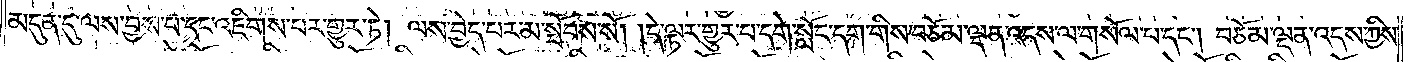མདུན་དུ་ལས་བྱས་པ་དང་འཇིགས་པར་གྱུར་ཏེ། ལས་བྱེད་པར་མ་སྦོབས་སོ། །དེ་ལྟར་གྱུར་པ་དགེ་སློང་དག་གིས་བཅོམ་ལྡན་འདས་ལ་གསོལ་བ་དང༌། བཅོམ་ལྡན་འདས་ཀྱིས་
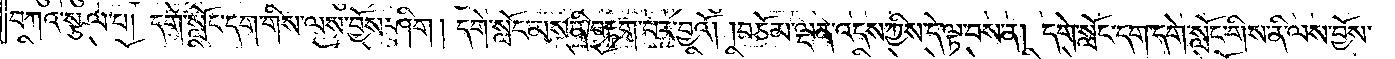བཀའ་སྩལ་པ། དགེ་སློང་དག་གིས་ལས་བྱོས་ཤིག །དགེ་སློང་མས་ནི་བརྟག་པར་བྱའོ། །བཅོམ་ལྡན་འདས་ཀྱིས་དེ་ལྟ་བས་ན། དགེ་སློང་དག་དགེ་སློང་གིས་ནི་ལས་བྱོས་
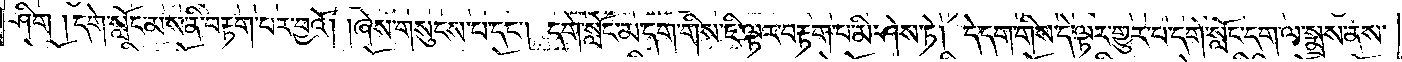ཤིག །དགེ་སློང་མས་ནི་བརྟག་པར་བྱའོ། །ཞེས་གསུངས་པ་དང༌། དགེ་སློང་མ་དག་གིས་ཇི་ལྟར་བརྟག་པ་མི་ཤེས་ཏེ། དེ་དག་གིས་དེ་ལྟར་གྱུར་པ་དགེ་སློང་དག་ལ་སྨྲས་ནས་
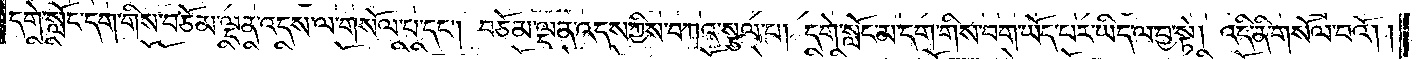དགེ་སློང་དག་གིས་བཅོམ་ལྡན་འདས་ལ་གསོལ་པ་དང༌། བཅོམ་ལྡན་འདས་ཀྱིས་བཀའ་སྩལ་པ། དགེ་སློང་མ་དག་གིས་བག་ཡོད་པར་ཡིད་ལ་བྱ་སྟེ། འདི་ནི་གསོལ་བའོ། །
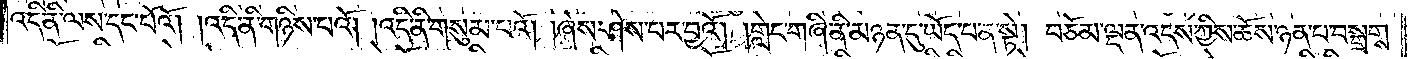འདི་ནི་ལས་དང་པོའོ། །འདི་ནི་གཉིས་པའོ། །འདི་ནི་གསུམ་པའོ། །ཞེས་ཤེས་པར་བྱའོ། །གླེང་གཞི་ནི་མཉན་དུ་ཡོད་པ་ན་སྟེ། བཅོམ་ལྡན་འདས་ཀྱིས་ཆོས་ཉན་པ་བསྒྲགས་
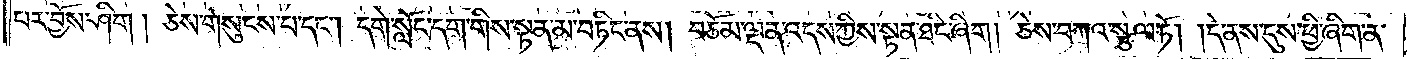པར་བྱོས་ཤིག །ཅེས་གསུངས་པ་དང༌། དགེ་སློང་དག་གིས་སྟན་མ་བཏིང་ནས། བཅོམ་ལྡན་འདས་ཀྱིས་སྟན་ཐིང་ཞིག །ཅེས་བཀའ་སྩལ་ཏོ། དེ་ནས་དུས་ཕྱི་ཞིག་ན་
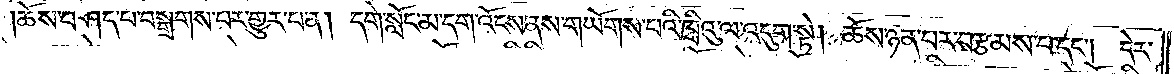།ཆོས་བཤད་པ་བསྒྲགས་པར་གྱུར་པ་ན། དགེ་སློང་མ་དག་འོངས་ནས་གཡོགས་པའི་ཁྲིའུ་ལ་འདུག་སྟེ། ཆོས་ཉན་པར་བརྩམས་པ་དང༌། དེར་
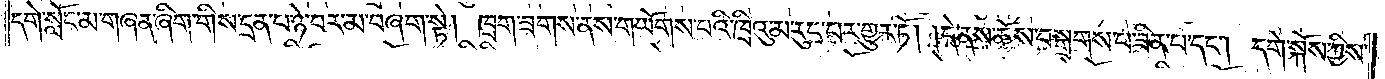དགེ་སློང་མ་གཞན་ཞིག་གིས་དྲན་པ་ཉེ་བར་མ་བཞག་སྟེ། ཁྲག་ཟགས་ནས་གཡོགས་པའི་ཁྲིའུ་མ་རུང་བར་གྱུར་ཏོ། །དེ་ནས་ཆོས་བསྒྲགས་པ་ཟིན་པ་དང༌། དགེ་སྐོས་ཀྱིས་
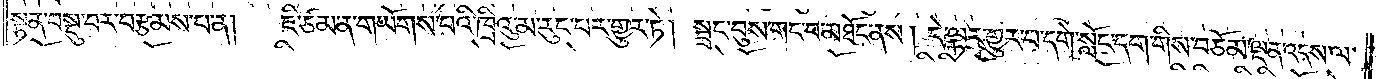སྟན་བསྡུ་བར་བརྩམས་པ་ན། ཇི་ཙམ་ན་གཡོགས་པའི་ཁྲིའུ་མ་རུང་བར་གྱུར་ཏེ། སྦྲང་བུས་གང་བ་མཐོང་ནས། དེ་ལྟར་གྱུར་པ་དགེ་སློང་དག་གིས་བཅོམ་ལྡན་འདས་ལ་
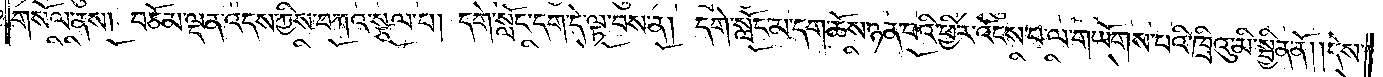གསོལ་ནས། བཅོམ་ལྡན་འདས་ཀྱིས་བཀའ་སྩལ་པ། དགེ་སློང་དག་དེ་ལྟ་བས་ན། དགེ་སློང་མ་དག་ཆོས་ཉན་པའི་ཕྱིར་འོངས་པ་ལ་གཡོགས་པའི་ཁྲིའུ་མི་སྦྱིན་ནོ། །དེས་
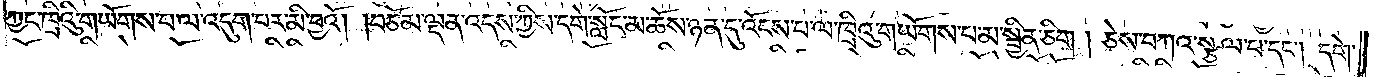ཀྱང་ཁྲིའུའི་གཡོགས་པ་ལ་འདུག་པར་མི་བྱའོ། །བཅོམ་ལྡན་འདས་ཀྱིས་དགེ་སློང་མ་ཆོས་ཉན་དུ་འོངས་པ་ལ་ཁྲིའུ་གཡོགས་པ་མ་སྦྱིན་ཅིག །ཅེས་བཀའ་སྩལ་པ་དང༌། དགེ་
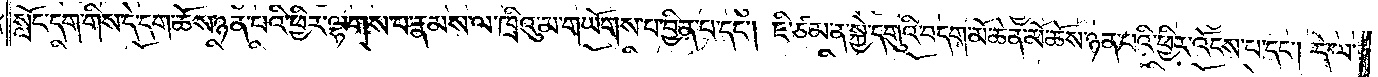སློང་དག་གིས་དེ་དག་ཆོས་ཉན་པའི་ཕྱིར་ལྷགས་པ་རྣམས་ལ་ཁྲིའུ་མ་གཡོགས་པ་བྱིན་པ་དང༌། ཇི་ཙམ་ན་སྐྱེ་དགུའི་བདག་མོ་ཆེན་མོ་ཆོས་ཉན་པའི་ཕྱིར་འོངས་པ་དང༌། དེ་ལ་
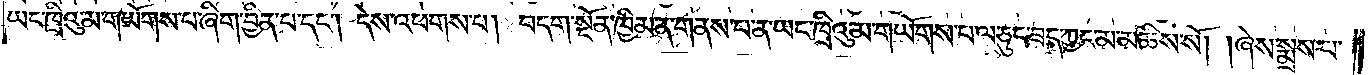ཡང་ཁྲིའུ་མ་གཡོགས་པ་ཞིག་བྱིན་པ་དང༌། དེས་འཕགས་པ། བདག་སྔོན་ཁྱིམ་ན་གནས་པ་ན་ཡང་ཁྲིའུ་གཡོགས་པ་ལ་ཅུང་ཟད་ཀྱང་མ་མཆིས་སོ། །ཞེས་སྨྲས་པ་
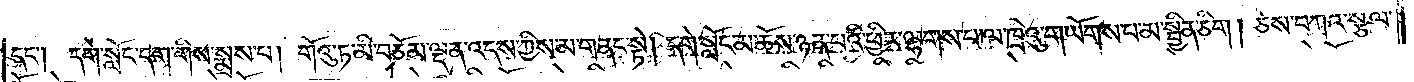དང༌། དགེ་སློང་དག་གིས་སྨྲས་པ། གོའུ་ཏ་མི་བཅོམ་ལྡན་འདས་ཀྱིས་མ་གནང་སྟེ། དགེ་སློང་མ་ཆོས་ཉན་པའི་ཕྱིར་ལྷགས་པ་ལ་ཁྲིའུ་གཡོགས་པ་མ་སྦྱིན་ཅིག །ཅེས་བཀའ་སྩལ་
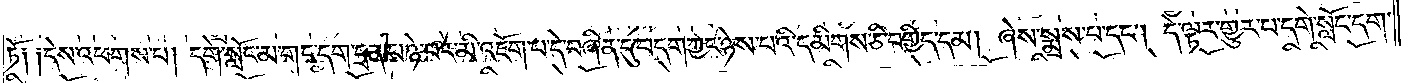ཏོ༑ ༑དེས་འཕགས་པ། དགེ་སློང་མ་གང་དག་དྲན་པ་ཉེ་བར་མི་འཇོག་པ་དེ་བཞིན་དུ་བདག་ཀྱང་ཉེས་པའི་དམིགས་ཅི་བགྱིད་དམ། ཞེས་སྨྲས་པ་དང༌། དེ་ལྟར་གྱུར་པ་དགེ་སློང་དག་
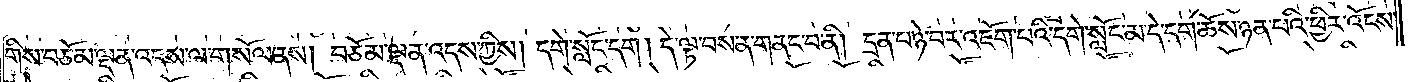གིས་བཅོམ་ལྡན་འདས་ལ་གསོལ་ནས། བཅོམ་ལྡན་འདས་ཀྱིས། དགེ་སློང་དག །དེ་ལྟ་བས་ན་གནང་བ་ནི། དྲན་པ་ཉེ་བར་འཇོག་པའི་དགེ་སློང་མ་དེ་དག་ཆོས་ཉན་པའི་ཕྱིར་འོངས་
